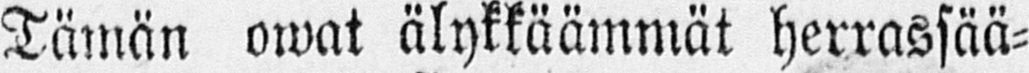Tämän owat älykkäämmät herrassää-
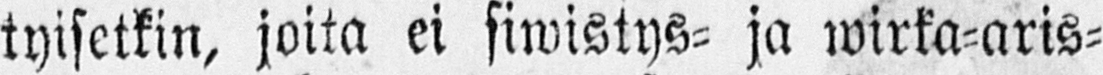tyisetkin, joita ei siwistys- ja wirka-aris-
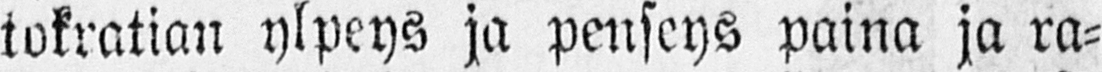tokratian ylpeys ja penseys paina ja ra-
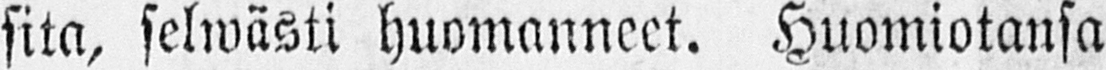sita, selwästi huomanneet. Huomiotansa
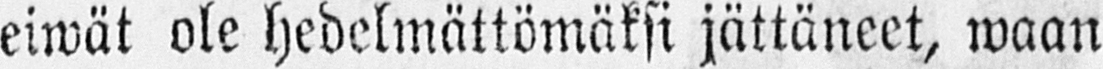eiwät ole hedelmättömäksi jättäneet, waan
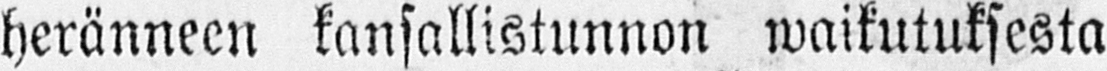heränneen kansallistunnon waikutuksesta
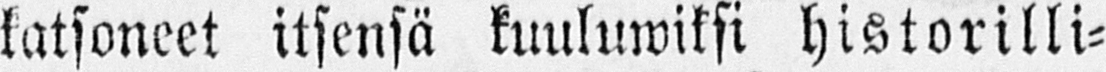katsoneet itsensä kuuluwiksi historilli-
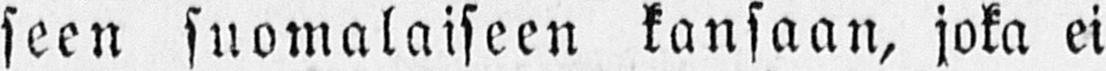seen suomalaiseen kansaan, joka ei
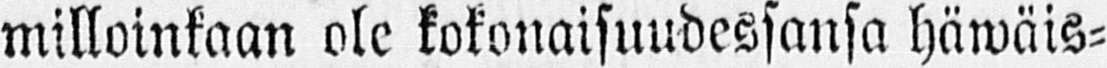milloinkaan ole kokonaisuudessansa häwäis-
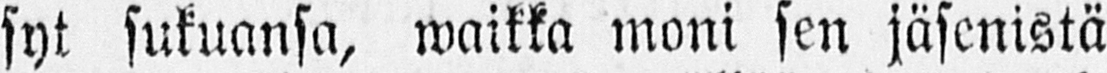syt sukuansa, waikka moni sen jäsenistä
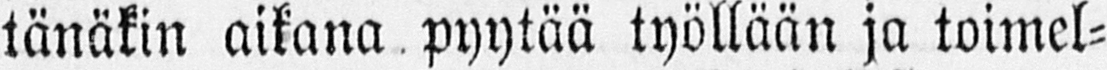tänäkin aikana pyytää työllään ja toimel-
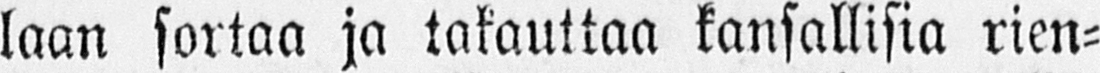laan sortaa ja takauttaa kansallisia rien-
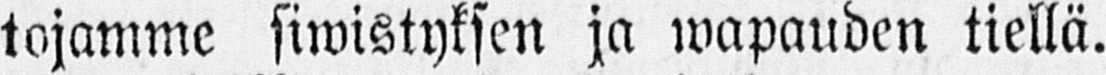tojamme siwistyksen ja wapauden tiellä.
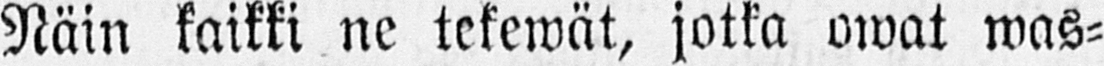Näin kaikki ne tekewät, jotka owat was-
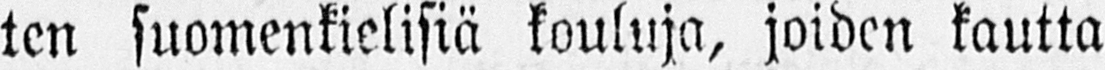ten suomenkielisiä kouluja, joiden kautta
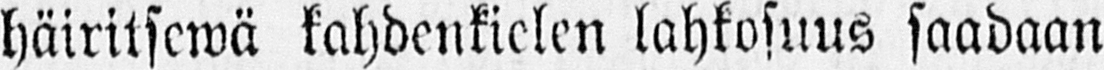häiritsewä kahdenkielen lahkosuus saadaan
